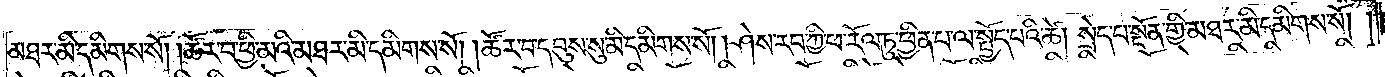མཐར་མ་དམིགས་སོ། །ཚོར་བ་ཕྱི་མའི་མཐར་མི་དམིགས་སོ། །ཚོར་བ་དབུས་སུ་མི་དམིགས་སོ། །ཤེས་རབ་ཀྱི་ཕ་རོལ་ཏུ་ཕྱིན་པ་ལ་སྤྱོད་པའི་ཚེ། སྲེད་པ་སྔོན་གྱི་མཐར་མི་དམིགས་སོ། །
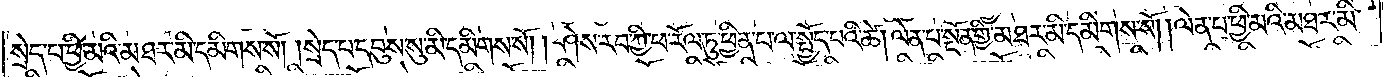སྲེད་པ་ཕྱི་མའི་མཐར་མི་དམིགས་སོ། །སྲེད་པ་དབུས་སུ་མི་དམིགས་སོ། །ཤེས་རབ་ཀྱི་ཕ་རོལ་ཏུ་ཕྱིན་པ་ལ་སྤྱོད་པའི་ཚེ། ལེན་པ་སྔོན་གྱི་མཐར་མི་དམིགས་སོ། །ལེན་པ་ཕྱི་མའི་མཐར་མི་
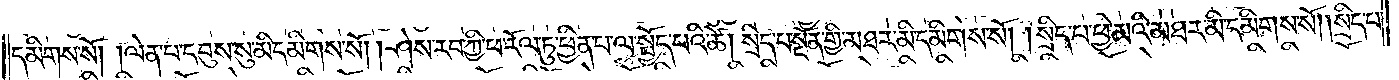དམིགས་སོ། །ལེན་པ་དབུས་སུ་མི་དམིགས་སོ། །ཤེས་རབ་ཀྱི་ཕ་རོལ་ཏུ་ཕྱིན་པ་ལ་སྤྱོད་པའི་ཚེ། སྲིད་པ་སྔོན་གྱི་མཐར་མི་དམིགས་སོ། །སྲིད་པ་ཕྱི་མའི་མཐར་མི་དམིགས་སོ། །སྲིད་པ་
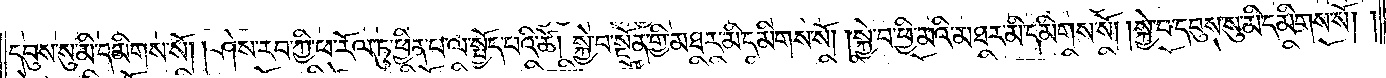དབུས་སུ་མི་དམིགས་སོ། །ཤེས་རབ་ཀྱི་ཕ་རོལ་ཏུ་ཕྱིན་པ་ལ་སྤྱོད་པའི་ཚེ། སྐྱེ་བ་སྔོན་གྱི་མཐར་མི་དམིགས་སོ། །སྐྱེ་བ་ཕྱི་མའི་མཐར་མི་དམིགས་སོ། །སྐྱེ་བ་དབུས་སུ་མི་དམིགས་སོ། །
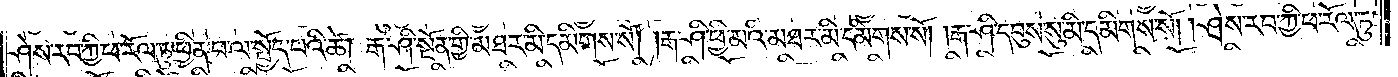ཤེས་རབ་ཀྱི་ཕ་རོལ་ཏུ་ཕྱིན་པ་ལ་སྤྱོད་པའི་ཚེ། རྒ་ཤི་སྔོན་གྱི་མཐར་མི་དམིགས་སོ། །རྒ་ཤི་ཕྱི་མའི་མཐར་མི་དམིགས་སོ། །རྒ་ཤི་དབུས་སུ་མི་དམིགས་སོ། །ཤེས་རབ་ཀྱི་ཕ་རོལ་ཏུ་
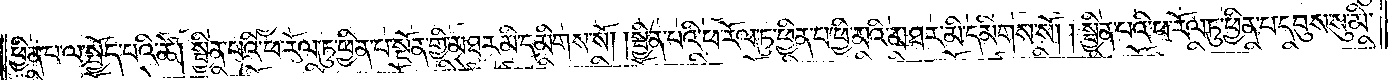ཕྱིན་པ་ལ་སྤྱོད་པའི་ཚེ། སྦྱིན་པའི་ཕ་རོལ་ཏུ་ཕྱིན་པ་སྔོན་གྱི་མཐར་མི་དམིགས་སོ། །སྦྱིན་པའི་ཕ་རོལ་ཏུ་ཕྱིན་པ་ཕྱི་མའི་མཐར་མི་དམིགས་སོ། །སྦྱིན་པའི་ཕ་རོལ་ཏུ་ཕྱིན་པ་དབུས་སུ་མི་
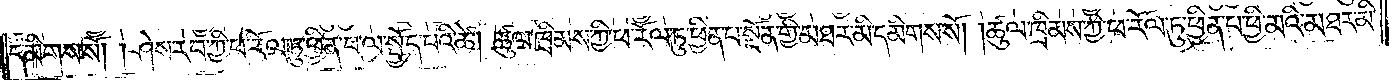དམིགས་སོ། །ཤེས་རབ་ཀྱི་ཕ་རོལ་ཏུ་ཕྱིན་པ་ལ་སྤྱོད་པའི་ཚེ། ཚུལ་ཁྲིམས་ཀྱི་ཕ་རོལ་ཏུ་ཕྱིན་པ་སྔོན་གྱི་མཐར་མི་དམིགས་སོ། །ཚུལ་ཁྲིམས་ཀྱི་ཕ་རོལ་ཏུ་ཕྱིན་པ་ཕྱི་མའི་མཐར་མི་
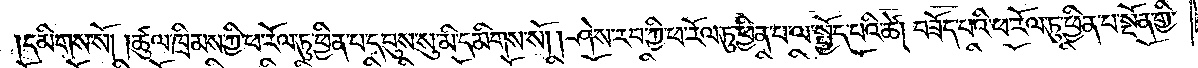དམིགས་སོ། །ཚུལ་ཁྲིམས་ཀྱི་ཕ་རོལ་ཏུ་ཕྱིན་པ་དབུས་སུ་མི་དམིགས་སོ། །ཤེས་རབ་ཀྱི་ཕ་རོལ་ཏུ་ཕྱིན་པ་ལ་སྤྱོད་པའི་ཚེ། བཟོད་པའི་ཕ་རོལ་ཏུ་ཕྱིན་པ་སྔོན་གྱི་
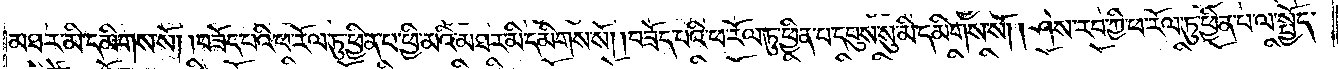མཐར་མི་དམིགས་སོ། །བཟོད་པའི་ཕ་རོལ་ཏུ་ཕྱིན་པ་ཕྱི་མའི་མཐར་མི་དམིགས་སོ། །བཟོད་པའི་ཕ་རོལ་ཏུ་ཕྱིན་པ་དབུས་སུ་མི་དམིགས་སོ། །ཤེས་རབ་ཀྱི་ཕ་རོལ་ཏུ་ཕྱིན་པ་ལ་སྤྱོད་
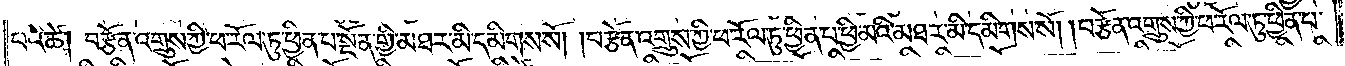པའི་ཚེ། བརྩོན་འགྲུས་ཀྱི་ཕ་རོལ་ཏུ་ཕྱིན་པ་སྔོན་གྱི་མཐར་མི་དམིགས་སོ། །བརྩོན་འགྲུས་ཀྱི་ཕ་རོལ་ཏུ་ཕྱིན་པ་ཕྱི་མའི་མཐར་མི་དམིགས་སོ། །བརྩོན་འགྲུས་ཀྱི་ཕ་རོལ་ཏུ་ཕྱིན་པ་
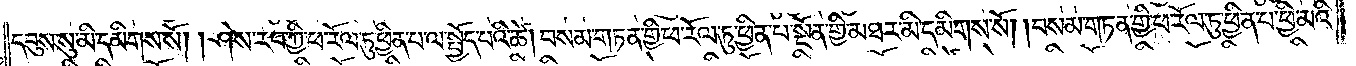དབུས་སུ་མི་དམིགས་སོ། །ཤེས་རབ་ཀྱི་ཕ་རོལ་ཏུ་ཕྱིན་པ་ལ་སྤྱོད་པའི་ཚེ། བསམ་གཏན་གྱི་ཕ་རོལ་ཏུ་ཕྱིན་པ་སྔོན་གྱི་མཐར་མི་དམིགས་སོ། །བསམ་གཏན་གྱི་ཕ་རོལ་ཏུ་ཕྱིན་པ་ཕྱི་མའི་
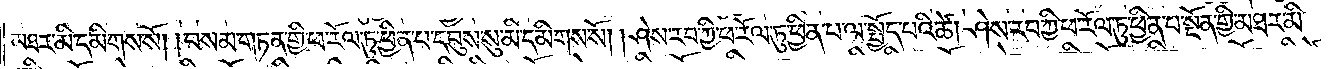མཐར་མི་དམིགས་སོ། །བསམ་གཏན་གྱི་ཕ་རོལ་ཏུ་ཕྱིན་པ་དབུས་སུ་མི་དམིགས་སོ། །ཤེས་རབ་ཀྱི་ཕ་རོལ་ཏུ་ཕྱིན་པ་ལ་སྤྱོད་པའི་ཚེ། ཤེས་རབ་ཀྱི་ཕ་རོལ་ཏུ་ཕྱིན་པ་སྔོན་གྱི་མཐར་མི་
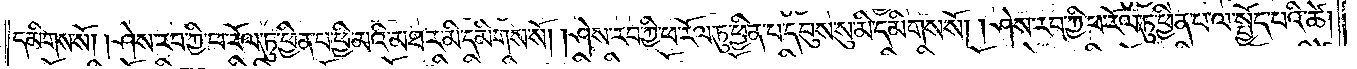དམིགས་སོ། །ཤེས་རབ་ཀྱི་ཕ་རོལ་ཏུ་ཕྱིན་པ་ཕྱི་མའི་མཐར་མི་དམིགས་སོ། །ཤེས་རབ་ཀྱི་ཕ་རོལ་ཏུ་ཕྱིན་པ་དབུས་སུ་མི་དམིགས་སོ། །ཤེས་རབ་ཀྱི་ཕ་རོལ་ཏུ་ཕྱིན་པ་ལ་སྤྱོད་པའི་ཚེ།
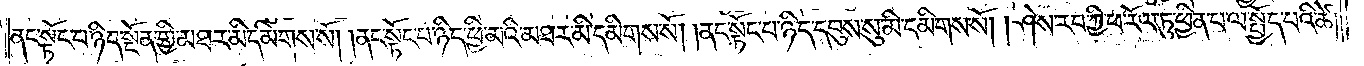ནང་སྟོང་པ་ཉིད་སྔོན་གྱི་མཐར་མི་དམིགས་སོ། །ནང་སྟོང་པ་ཉིད་ཕྱི་མའི་མཐར་མི་དམིགས་སོ། །ནང་སྟོང་པ་ཉིད་དབུས་སུ་མི་དམིགས་སོ། །ཤེས་རབ་ཀྱི་ཕ་རོལ་ཏུ་ཕྱིན་པ་ལ་སྤྱོད་པའི་ཚེ།
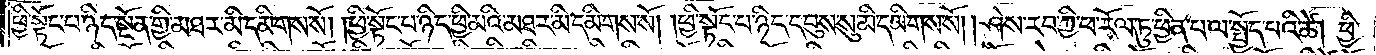ཕྱི་སྟོང་པ་ཉིད་སྔོན་གྱི་མཐར་མི་དམིགས་སོ། །ཕྱི་སྟོང་པ་ཉིད་ཕྱི་མའི་མཐར་མི་དམིགས་སོ། །ཕྱི་སྟོང་པ་ཉིད་དབུས་སུ་མི་དམིགས་སོ། །ཤེས་རབ་ཀྱི་ཕ་རོལ་ཏུ་ཕྱིན་པ་ལ་སྤྱོད་པའི་ཚེ། ཕྱི་
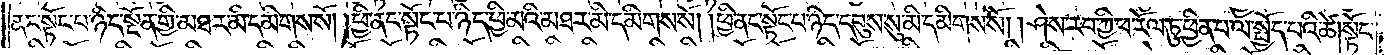ནང་སྟོང་པ་ཉིད་སྔོན་གྱི་མཐར་མི་དམིགས་སོ། །ཕྱི་ནང་སྟོང་པ་ཉིད་ཕྱི་མའི་མཐར་མི་དམིགས་སོ། །ཕྱི་ནང་སྟོང་པ་ཉིད་དབུས་སུ་མི་དམིགས་སོ། །ཤེས་རབ་ཀྱི་ཕ་རོལ་ཏུ་ཕྱིན་པ་ལ་སྤྱོད་པའི་ཚེ། སྟོང་
